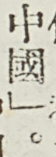中國」。
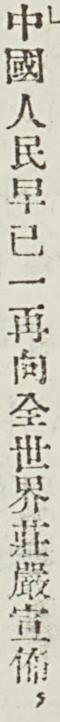中國人民早已一再向全世界莊嚴宣佈，
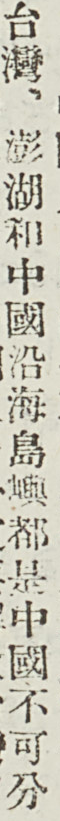台灣、澎湖和中國沿海島嶼都是中國不可分
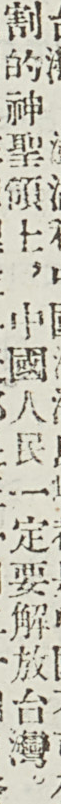割的神聖領土，中國人民一定要解放台灣。
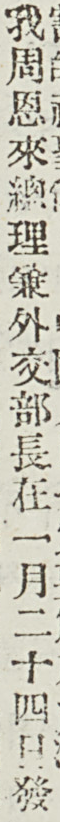我周恩來總理兼外交部長在一月二十四日發
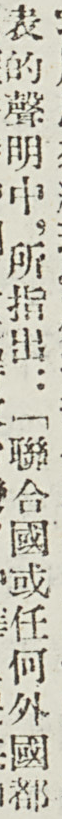表的聲明中，所指出：「聯合國或任何外國都
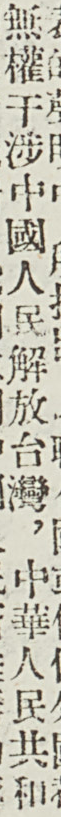無權干涉中國人民解放台灣，中華人民共和
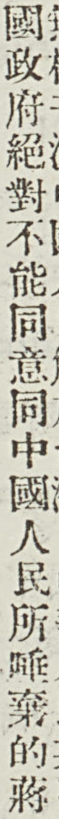國政府絕對不能同意同中國人民所唾棄的蔣
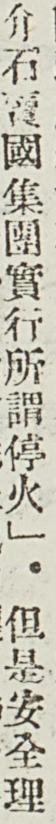介石賣國集團實行所謂停火」。但是安全理
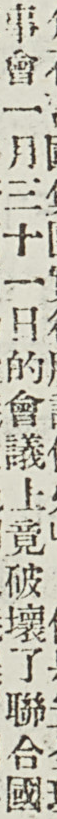事會一月三十一日的會議上竟破壞了聯合國
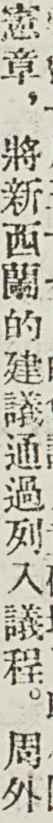憲章，將新西蘭的建議通過列入議程。周外
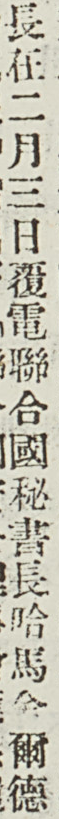長在二月三日覆電聯合國祕書長哈馬舍爾德
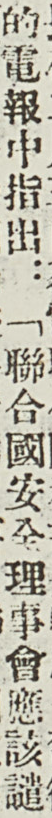的電報中指出：「聯合國安全理事會應該譴
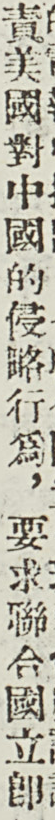責美國對中國的侵略行爲，要求聯合國立卽
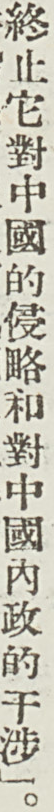終止它對中國的侵略和對中國內政的干涉」。
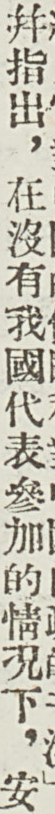並指出，在沒有我國代表參加的情況下，安
